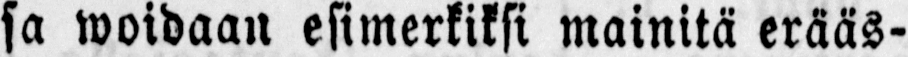sa woidaan esimerkiksi mainitä erääs-
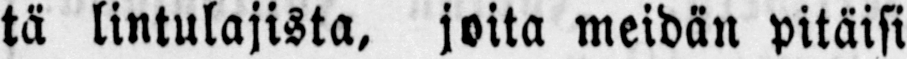tä lintulajista, joita meidän pitäisi
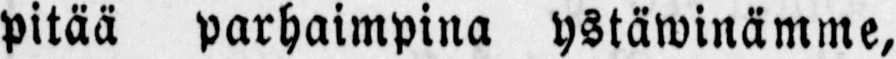pitää parhaimpina ystäwinämme.
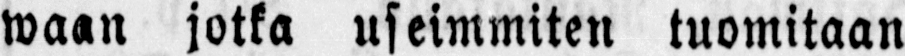waan jotka useimmiten tuomitaan
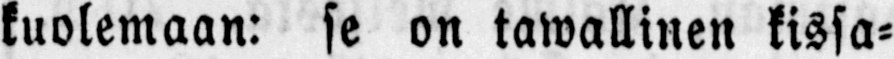kuolemaan: se on tawallinen kissa-
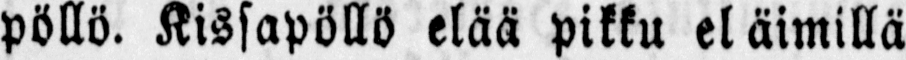pöllö. Kissapöllö elää pikku eläimillä
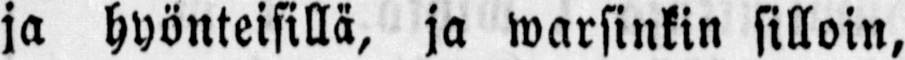ja hyönteisillä, ja warsinkin silloin,
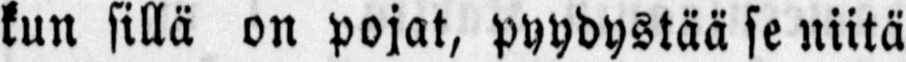kun sillä on pojat, pyydystää se niitä
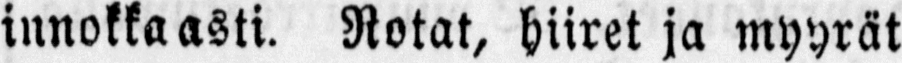innokkaasti. Rotat, hiiret ja myyrät
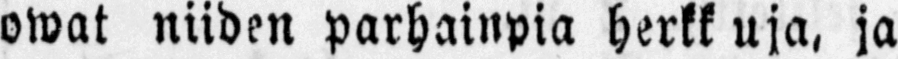owat niiden parhainpia herkk uja, ja
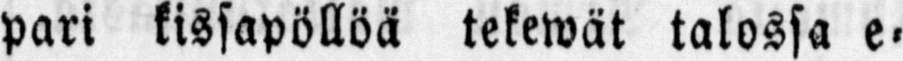pari kissapöllöä tekewät talossa e-
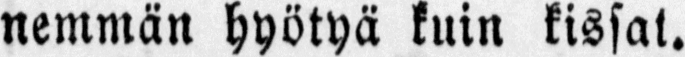nemmän hyötyä kuin kissat.
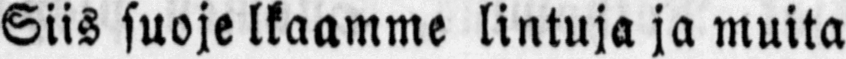Siis suoje lkaamme lintuja ja muita
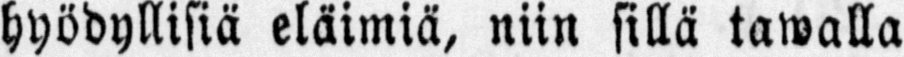hyödyllisiä eläimiä, niin sillä tawalla
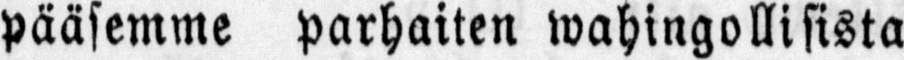pääsemme parhaiten wahingollisista
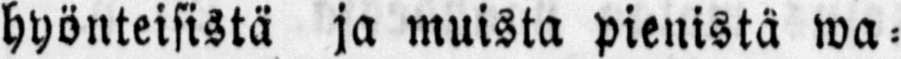hyönteisistä ja muista pienistä wa-
